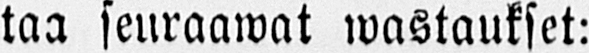taa seuraawat wastaukset:
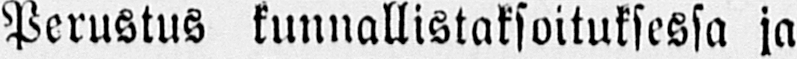Perustus kunnallistaksoituksessa ja
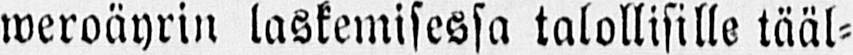weroäyrin laskemisessa talollisille tääl-
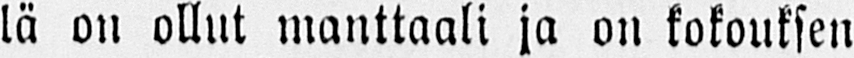lä on ollut manttaali ja on kokouksen
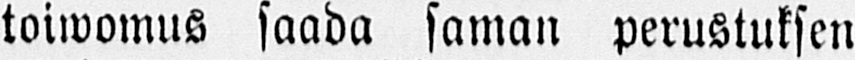toiwomus saada saman perustuksen
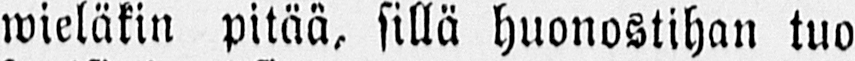wieläkin pitää, sillä huonostihan tuo
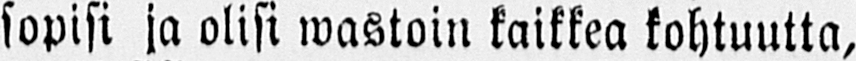sopisi ja olisi wastoin kaikkea kohtuutta,
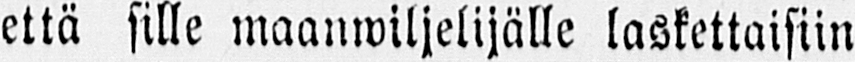että sille maanwiljelijälle laskettaisiin
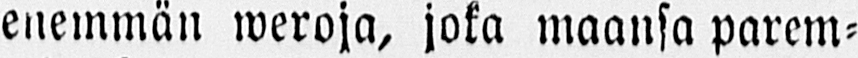enemmän weroja, joka maansa parem-
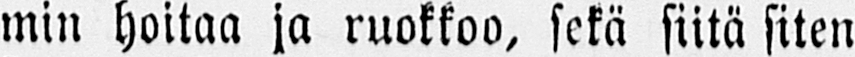min hoitaa ja ruokkoo, sekä siitä siten
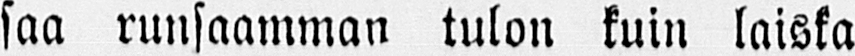saa runsaamman tulon kuin laiska
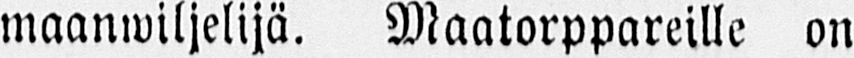maanwiljelijä. Maatorppareille on
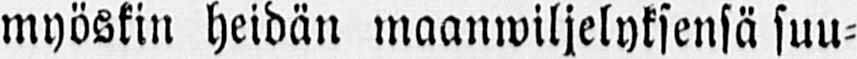myöskin heidän maanwiljelyksensä suu-
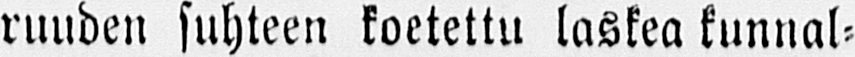ruuden suhteen koetettu laskea kunnal-
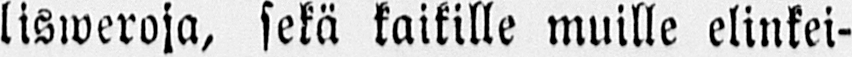lisweroja, sekä kaikille muille elinkei-
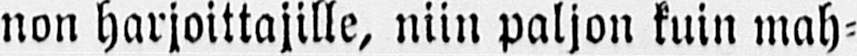non harjoittajille, niin paljon kuin mah-
